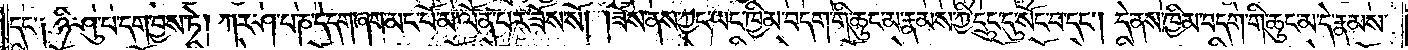དང་༑ ཉི་ཤུ་པ་དག་བྱས་ཏེ། ཀར་ཤ་པ་ཎ་དེ་དག་ཞག་མང་པོ་མ་ལོན་པར་ཟོས་སོ། །ཟོས་ནས་ཀྱང་ཡང་ཁྱིམ་བདག་གི་ཆུང་མ་རྣམས་ཀྱི་དྲུང་དུ་སོང་བ་དང༌། དེ་ནས་ཁྱིམ་བདག་གི་ཆུང་མ་དེ་རྣམས་
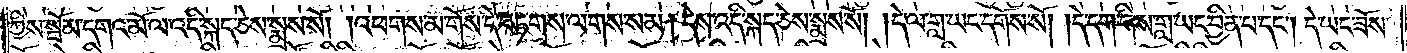ཀྱིས་སྦོམ་དགའ་མོ་ལ་འདི་སྐད་ཅེས་སྨྲས་སོ། །འཕགས་མ་གོས་དེ་བཏགས་ལགས་སམ། དེས་འདི་སྐད་ཅེས་སྨྲས་སོ། །དེ་ལ་གླ་ཡང་དགོས་སོ། །དེ་དག་གིས་གླ་ཡང་བྱིན་པ་དང༌། དེ་ཡང་ཟོས་
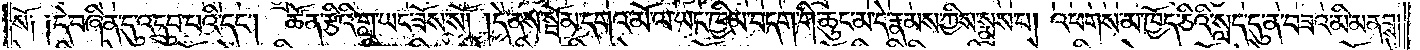སོ༑ ༑དེ་བཞིན་དུ་འདྲུབ་པའི་དང༌། ཚོན་རྩིའི་གླ་ཡང་ཟོས་སོ། །དེ་ནས་སྦོམ་དགའ་མོ་ལ་ཡང་ཁྱིམ་བདག་གི་ཆུང་མ་དེ་རྣམས་ཀྱིས་སྨྲས་པ། འཕགས་མ་ཁྱོད་ཅིའི་སླད་དུ་ན་བཟའ་མི་མནབས།
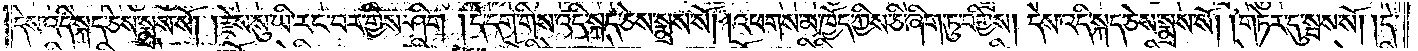དེས་འདི་སྐད་ཅེས་སྨྲས་སོ། །རྗེས་སུ་ཡི་རང་བར་གྱིས་ཤིག །དེ་དག་གིས་འདི་སྐད་ཅེས་སྨྲས་སོ། །འཕགས་མ་ཁྱོད་ཀྱིས་ཅི་ཞིག་ཏུ་བགྱིས། དེས་འདི་སྐད་ཅེས་སྨྲས་སོ། །གཏེར་དུ་སྦས་སོ། །དེ་
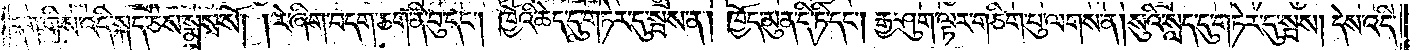དག་གིས་འདི་སྐད་ཅེས་སྨྲས་སོ། །རེ་ཞིག་བདག་ཅག་ནི་བུ་དང༌། ཁྱོའི་ཆེད་དུ་གཏེར་དུ་སྦས་ན། ཁྱོད་མུན་དི་ཏི་དང༌། རྒྱ་ཤུག་ལྟར་གཅིག་པུ་ལགས་ན། སུའི་སླད་དུ་གཏེར་དུ་སྦས། དེས་འདི་
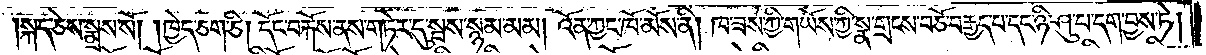སྐད་ཅེས་སྨྲས་སོ། །ཁྱེད་ཅག་ཅི། དོང་བརྐོས་ནས་གཏེར་དུ་སྦས་སྙམ་མམ། འོན་ཀྱང་ཁོ་མོས་ནི། ཁ་ཟས་ཀྱི་གཡོས་ཀྱི་སྣ་གྲངས་བཅོ་བརྒྱད་པ་དང་ཉི་ཤུ་པ་དག་བྱས་ཏེ།
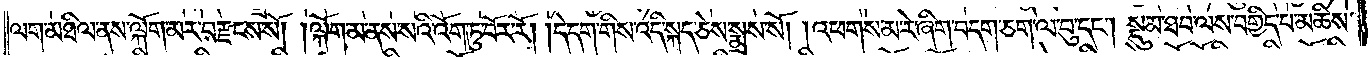ལག་མཐིལ་ནས་ལྐོག་མར་བརྫངས་སོ། །ལྐོག་མ་ནས་སའི་འོག་ཏུ་བོར་རོ། །དེ་དག་གིས་འདི་སྐད་ཅེས་སྨྲས་སོ། །འཕགས་མ་རེ་ཞིག་བདག་ཅག་ལ་བུ་དང༌། སྡུམ་ཐབ་ལས་བགྱིད་པ་མཆིས་
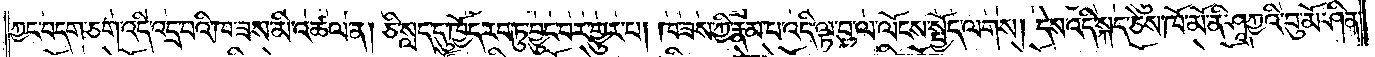ཀྱང་བདག་ཅག་འདི་འདྲ་བའི་ཁ་ཟས་མི་འཚལ་ན། ཅི་སླད་དུ་ཁྱོད་རབ་ཏུ་བྱུང་བར་གྱུར་པ། ཁ་ཟས་ཀྱི་རྣམ་པ་འདི་ལྟ་བུ་ལ་ལོངས་སྤྱོད་ལགས། དེས་འདི་སྐད་ཅེས་ཁོ་མོ་ནི་ཤཱཀྱའི་བུ་མོ་ཤིན་
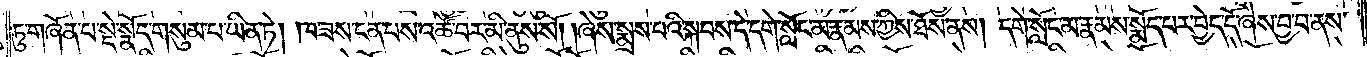ཏུ་གཞོན་པ་སྡེ་སྣོད་གསུམ་པ་ཡིན་ཏེ། ཁ་ཟས་ངན་པས་འཚོ་བར་མི་ནུས་སོ། །ཞེས་སྨྲས་པའི་སྐབས་དེ་དགེ་སློང་མ་རྣམས་ཀྱིས་ཐོས་ནས། དགེ་སློང་མ་རྣམས་སྨོད་པར་བྱེད་དོ་ཞེས་བྱ་བ་ནས་
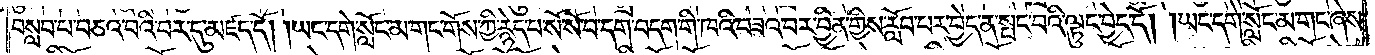བསླབ་པ་བཅའ་བའི་བར་དུ་མཛད་དོ། །ཡང་དགེ་སློང་མ་གང་གོས་ཀྱི་རྙེད་པ་སོ་སོ་བ་དག་བདག་གི་ཁའི་བཟའ་བར་བྱིན་གྱིས་རློབ་པར་བྱེད་ན་སྤང་བའི་ལྟུང་བྱེད་དོ། །ཡང་དགེ་སློང་མ་གང་ཞེས་
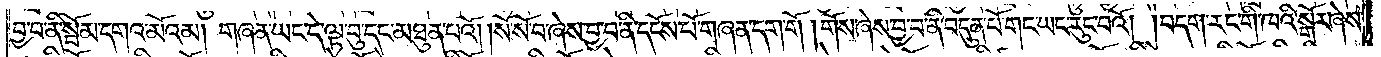བྱ་བ་ནི་སྦོམ་དགའ་མོའམ། གཞན་ཡང་དེ་ལྟ་བུ་དང་མཐུན་པའོ། །སོ་སོ་བ་ཞེས་བྱ་བ་ནི་དངོས་པོ་གཞན་དག་གོ །གོས་ཞེས་བྱ་བ་ནི་བདུན་པོ་གང་ཡང་རུང་བའོ། །བདག་རང་གི་ཁའི་སྒོར་ཞེས་
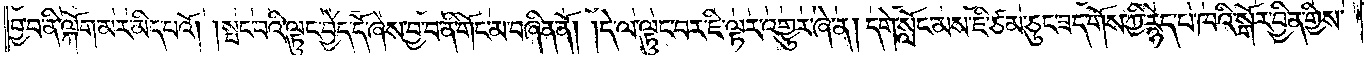བྱ་བ་ནི་ལྐོག་མར་མིད་པའོ། །སྤང་བའི་ལྟུང་བྱེད་དོ་ཞེས་བྱ་བ་ནི་གོང་མ་བཞིན་ནོ། །དེ་ལ་ལྟུང་བར་ཇི་ལྟར་འགྱུར་ཞེ་ན། དགེ་སློང་མས་ཇི་ཙམ་ཅུང་ཟད་གོས་ཀྱི་རྙེད་པ་ཁའི་སྒོར་བྱིན་གྱིས་
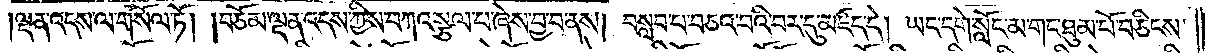ལྡན་འདས་ལ་གསོལ་ཏོ། །བཅོམ་ལྡན་འདས་ཀྱིས་བཀའ་སྩལ་པ་ཞེས་བྱ་བ་ནས། བསླབ་པ་བཅའ་བའི་བར་དུ་མཛད་དེ། ཡང་དགེ་སློང་མ་གང་ཐུམ་པོ་བཅིངས་
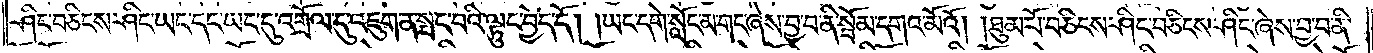ཤིང་བཅིངས་ཤིང་ཡང་དང་ཡང་དུ་འགྲོལ་དུ་འཇུག་ན་སྤང་བའི་ལྟུང་བྱེད་དོ། །ཡང་དགེ་སློང་མ་གང་ཞེས་བྱ་བ་ནི་སྦོམ་དགའ་མོའོ། །ཐུམ་པོ་བཅིངས་ཤིང་བཅིངས་ཤིང་ཞེས་བྱ་བ་ནི་
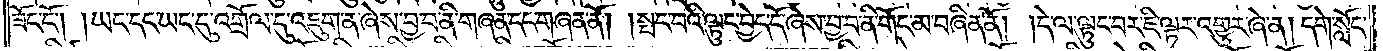ཟོང་ངོ༌། །ཡང་དང་ཡང་དུ་འགྲོལ་དུ་འཇུག་ན་ཞེས་བྱ་བ་ནི་གཞན་དང་གཞན་ནོ། །སྤང་བའི་ལྟུང་བྱེད་དོ་ཞེས་བྱ་བ་ནི་གོང་མ་བཞིན་ནོ། །དེ་ལ་ལྟུང་བར་ཇི་ལྟར་འགྱུར་ཞེ་ན། དགེ་སློང་
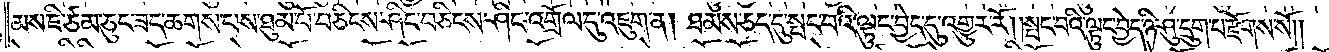མས་ཇི་ཙམ་ཅུང་ཟད་ཆགས་པས་ཐུམ་པོ་བཅིངས་ཤིང་བཅིངས་ཤིང་འགྲོལ་དུ་འཇུག་ན། ཐམས་ཅད་དུ་སྤང་བའི་ལྟུང་བྱེད་དུ་འགྱུར་རོ། །སྤང་བའི་ལྟུང་བྱེད་ཉི་ཤུ་དྲུག་པ་རྫོགས་སོ༎
